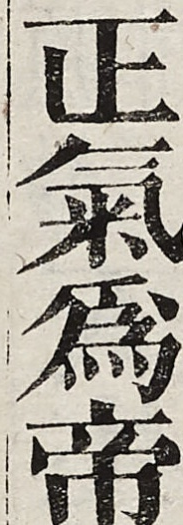正氣為帝
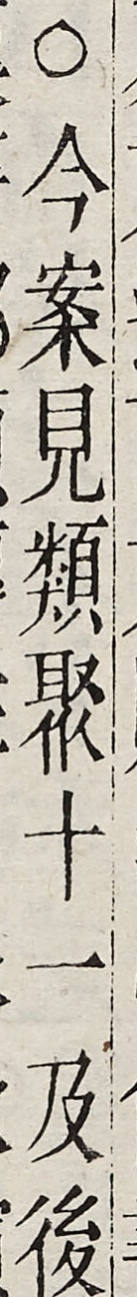○今案見類聚十一及後
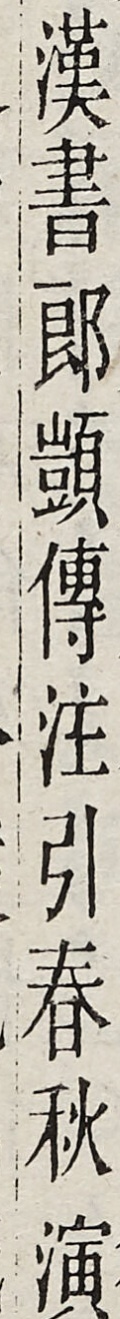漢書郎顗傳注引春秋演
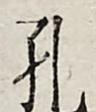孔
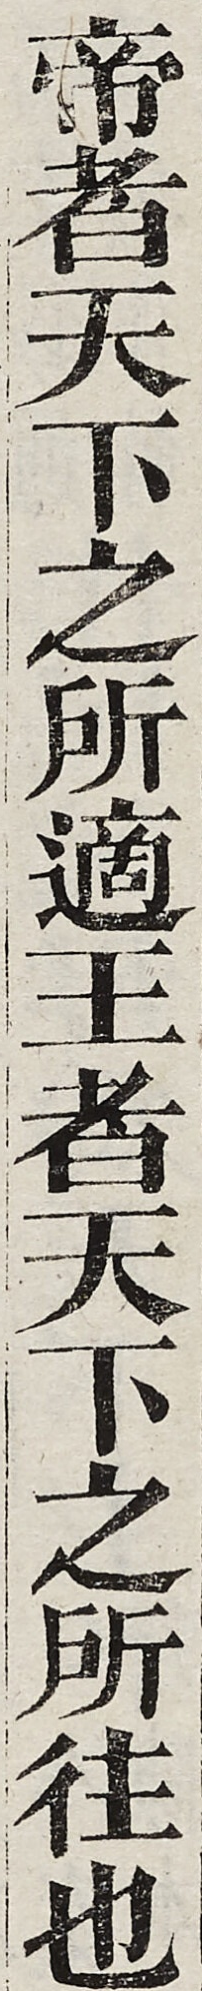帝者天下之所適王者天下之所往也
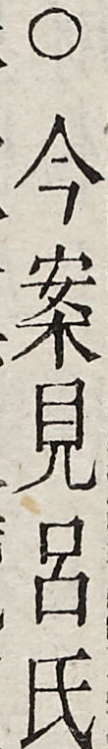○今案見呂氏
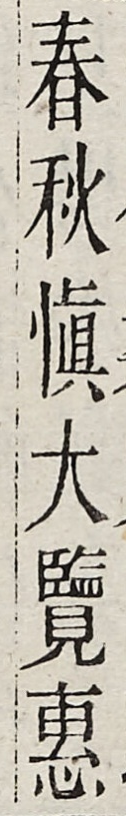春秋慎大覽惠
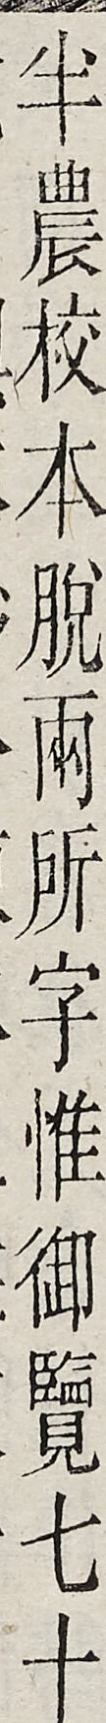半農校本脫兩所字惟御覽七十
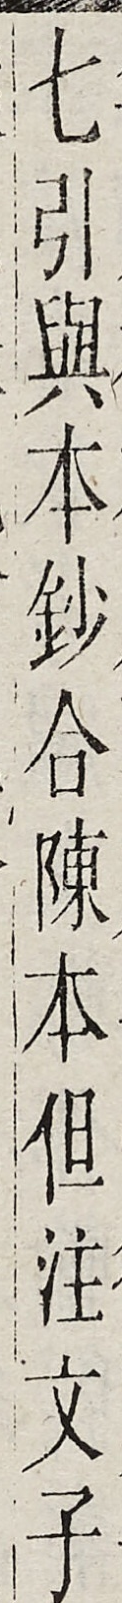七引與本鈔合陳本但注文子
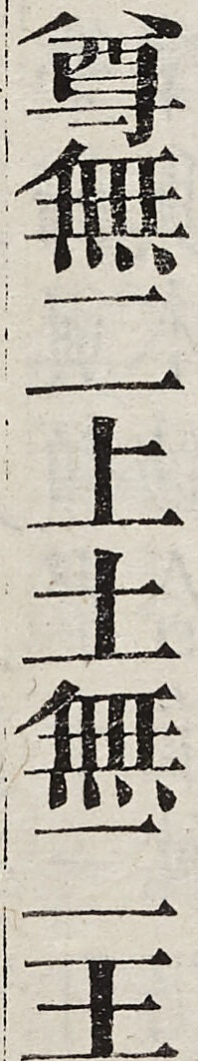尊無二上土無二王
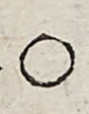○
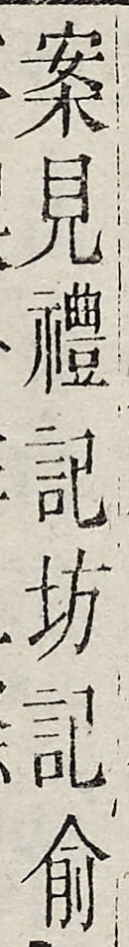案見禮記坊記俞
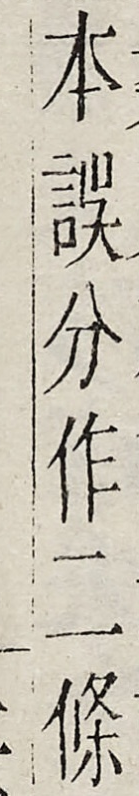本誤分作二條
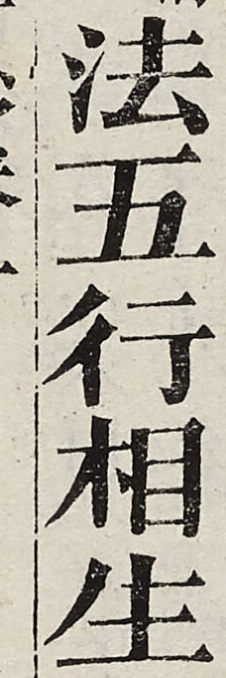法五行相生
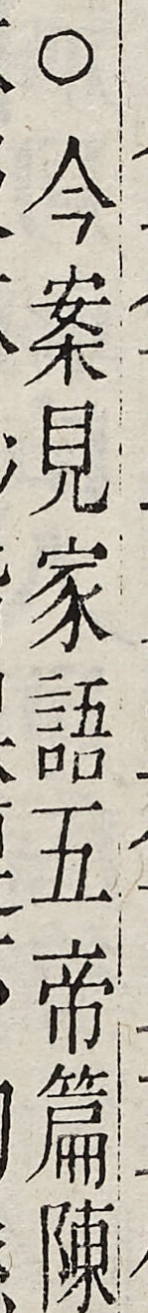○今案見家語五帝篇陳
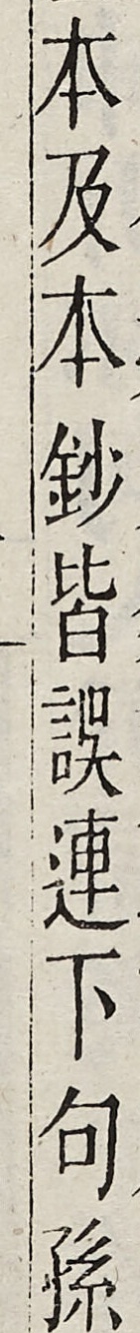本及本鈔皆誤連下句孫
